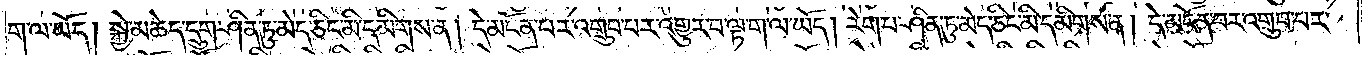ག་ལ་ཡོད། སྐྱེ་མཆེད་དྲུག་ཤིན་ཏུ་མེད་ཅིང་མི་དམིགས་ན། དེ་མངོན་པར་འགྲུབ་པར་འགྱུར་བ་ལྟ་ག་ལ་ཡོད། རེག་པ་ཤིན་ཏུ་མེད་ཅིང་མི་དམིགས་ན། དེ་མངོན་པར་འགྲུབ་པར་
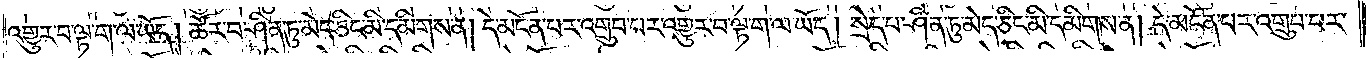འགྱུར་བ་ལྟ་ག་ལ་ཡོད། ཚོར་བ་ཤིན་ཏུ་མེད་ཅིང་མི་དམིགས་ན། དེ་མངོན་པར་འགྲུབ་པར་འགྱུར་བ་ལྟ་ག་ལ་ཡོད། སྲེད་པ་ཤིན་ཏུ་མེད་ཅིང་མི་དམིགས་ན། དེ་མངོན་པར་འགྲུབ་པར་
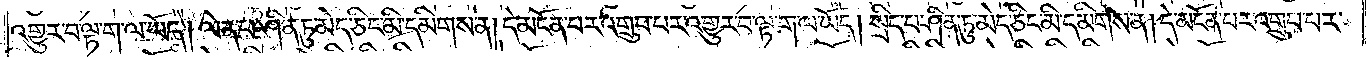འགྱུར་བ་ལྟ་ག་ལ་ཡོད། ལེན་པ་ཤིན་ཏུ་མེད་ཅིང་མི་དམིགས་ན། དེ་མངོན་པར་འགྲུབ་པར་འགྱུར་བ་ལྟ་ག་ལ་ཡོད། སྲིད་པ་ཤིན་ཏུ་མེད་ཅིང་མི་དམིགས་ན། དེ་མངོན་པར་འགྲུབ་པར་
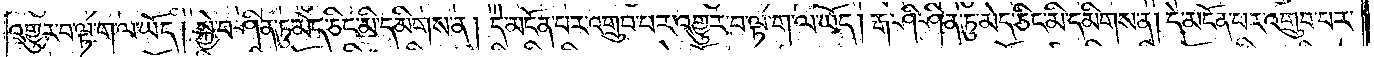འགྱུར་བ་ལྟ་ག་ལ་ཡོད། སྐྱེ་བ་ཤིན་ཏུ་མེད་ཅིང་མི་དམིགས་ན། དེ་མངོན་པར་འགྲུབ་པར་འགྱུར་བ་ལྟ་ག་ལ་ཡོད། རྒ་ཤི་ཤིན་ཏུ་མེད་ཅིང་མི་དམིགས་ན། དེ་མངོན་པར་འགྲུབ་
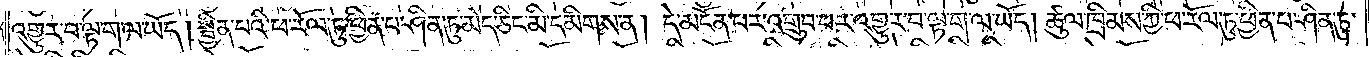པར་འགྱུར་བ་ལྟ་ག་ལ་ཡོད། སྦྱིན་པའི་ཕྱི་རོལ་ཏུ་ཕྱིན་པ་ཤིན་ཏུ་མེད་ཅིང་མི་དམིགས་ན། དེ་མངོན་པར་འགྲུབ་པར་འགྱུར་བ་ལྟ་ག་ལ་ཡོད། ཚུལ་ཁྲིམས་ཀྱི་ཕ་རོལ་ཏུ་ཕྱིན་པ་ཤིན་ཏུ་
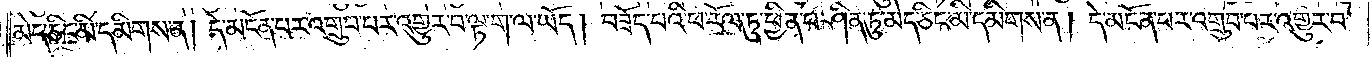མེད་ཅིང་མི་དམིགས་ན། དེ་མངོན་པར་འགྲུབ་པར་འགྱུར་བ་ལྟ་ག་ལ་ཡོད། བཟོད་པའི་ཕ་རོལ་ཏུ་ཕྱིན་པ་ཤིན་ཏུ་མེད་ཅིང་མི་དམིགས་ན། དེ་མངོན་པར་འགྲུབ་པར་འགྱུར་བ་
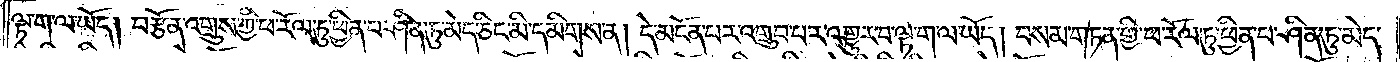ལྟ་ག་ལ་ཡོད། བརྩོན་འགྲུས་ཀྱི་ཕ་རོལ་ཏུ་ཕྱིན་པ་ཤིན་ཏུ་མེད་ཅིང་མི་དམིགས་ན། དེ་མངོན་པར་འགྲུབ་པར་འགྱུར་བ་ལྟ་ག་ལ་ཡོད། བསམ་གཏན་གྱི་ཕ་རོལ་ཏུ་ཕྱིན་པ་ཤིན་ཏུ་མེད་
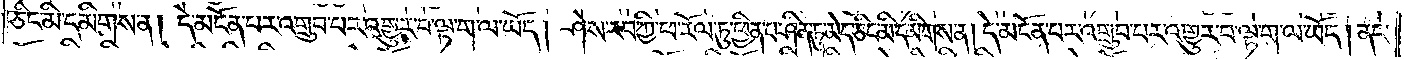ཅིང་མི་དམིགས་ན། དེ་མངོན་པར་འགྲུབ་པར་འགྱུར་བ་ལྟ་ག་ལ་ཡོད། ཤེས་རབ་ཀྱི་ཕ་རོལ་ཏུ་ཕྱིན་པ་ཤིན་ཏུ་མེད་ཅིང་མི་དམིགས་ན། དེ་མངོན་པར་འགྲུབ་པར་འགྱུར་བ་ལྟ་ག་ལ་ཡོད། ནང་
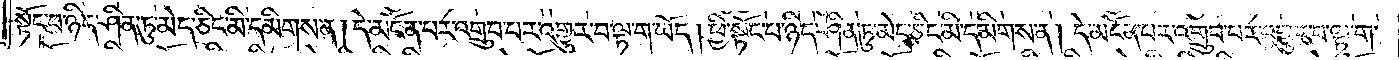སྟོང་པ་ཉིད་ཤིན་ཏུ་མེད་ཅིང་མི་དམིགས་ན། དེ་མངོན་པར་འགྲུབ་པར་འགྱུར་བ་ལྟ་ག་ལ་ཡོད། ཕྱི་སྟོང་པ་ཉིད་ཤིན་ཏུ་མེད་ཅིང་མི་དམིགས་ན། དེ་མངོན་པར་འགྲུབ་པར་འགྱུར་བ་ལྟ་ག་
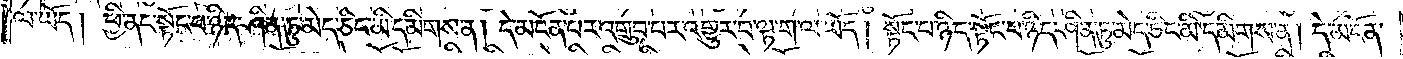ལ་ཡོད། ཕྱི་ནང་སྟོང་པ་ཉིད་ཤིན་ཏུ་མེད་ཅིང་མི་དམིགས་ན། དེ་མངོན་པར་འགྲུབ་པར་འགྱུར་བ་ལྟ་ག་ལ་ཡོད། སྟོང་པ་ཉིད་སྟོང་པ་ཉིད་ཤིན་ཏུ་མེད་ཅིང་མི་དམིགས་ན། དེ་མངོན་
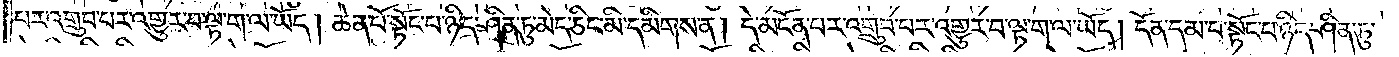པར་འགྲུབ་པར་འགྱུར་བ་ལྟ་ག་ལ་ཡོད། ཆེན་པོ་སྟོང་པ་ཉིད་ཤིན་ཏུ་མེད་ཅིང་མི་དམིགས་ན། དེ་མངོན་པར་འགྲུབ་པར་འགྱུར་བ་ལྟ་ག་ལ་ཡོད། དོན་དམ་པ་སྟོང་པ་ཉིད་ཤིན་ཏུ་
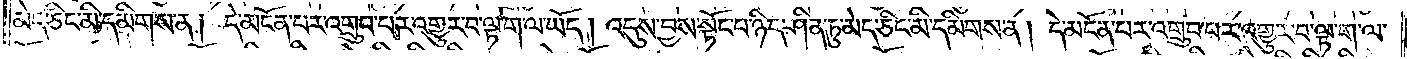མེད་ཅིང་མི་དམིགས་ན། དེ་མངོན་པར་འགྲུབ་པར་འགྱུར་བ་ལྟ་ག་ལ་ཡོད། འདུས་བྱས་སྟོང་པ་ཉིད་ཤིན་ཏུ་མེད་ཅིང་མི་དམིགས་ན། དེ་མངོན་པར་འགྲུབ་པར་འགྱུར་བ་ལྟ་ག་ལ་
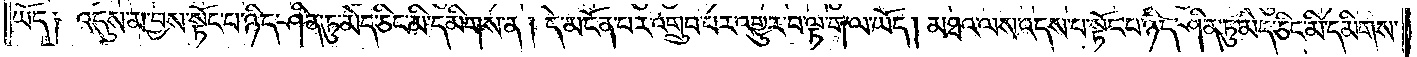ཡོད། འདུས་མ་བྱས་སྟོང་པ་ཉིད་ཤིན་ཏུ་མེད་ཅིང་མི་དམིགས་ན། དེ་མངོན་པར་འགྲུབ་པར་འགྱུར་བ་ལྟ་ག་ལ་ཡོད། མཐའ་ལས་འདས་པ་སྟོང་པ་ཉིད་ཤིན་ཏུ་མེད་ཅིང་མི་དམིགས་
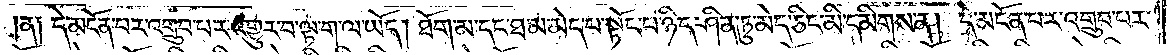ན༑ དེ་མངོན་པར་འགྲུབ་པར་འགྱུར་བ་ལྟ་ག་ལ་ཡོད། ཐོག་མ་དང་ཐ་མ་མེད་པ་སྟོང་པ་ཉིད་ཤིན་ཏུ་མེད་ཅིང་མི་དམིགས་ན། དེ་མངོན་པར་འགྲུབ་པར་
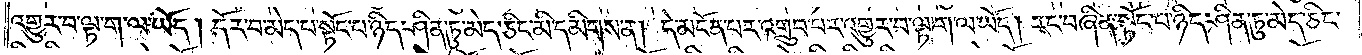འགྱུར་བ་ལྟ་ག་ལ་ཡོད། དོར་བ་མེད་པ་སྟོང་པ་ཉིད་ཤིན་ཏུ་མེད་ཅིང་མི་དམིགས་ན༑ དེ་མངོན་པར་འགྲུབ་པར་འགྱུར་བ་ལྟ་ག་ལ་ཡོད། རང་བཞིན་སྟོང་པ་ཉིད་ཤིན་ཏུ་མེད་ཅིང་
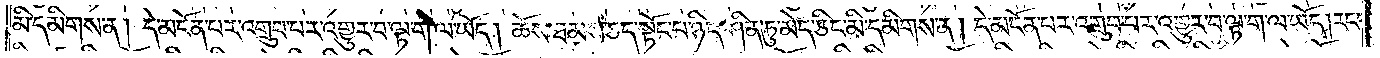མི་དམིགས་ན། དེ་མངོན་པར་འགྲུབ་པར་འགྱུར་བ་ལྟ་ག་ལ་ཡོད། ཆོས་ཐམས་ཅད་སྟོང་པ་ཉིད་ཤིན་ཏུ་མེད་ཅིང་མི་དམིགས་ན། དེ་མངོན་པར་འགྲུབ་པར་འགྱུར་བ་ལྟ་ག་ལ་ཡོད། རང་
